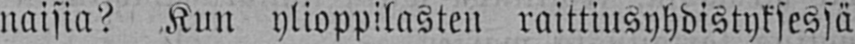naisia? Kun ylioppilasten raittiusyhdistyksessä
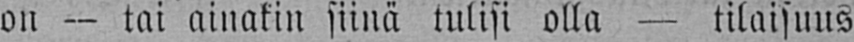on — tai ainakin siinä tulisi olla — tilaisuus
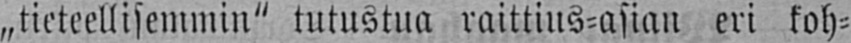„tieteellisemmin" tutustua raittius-asian eri koh-
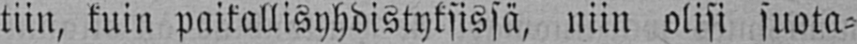tiin, kuin paikallisyhdistyksissä, niin olisi suota-
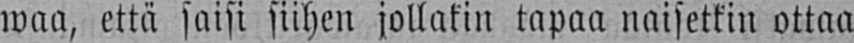waa, että saisi siihen jollakin tapaa naisetkin ottaa
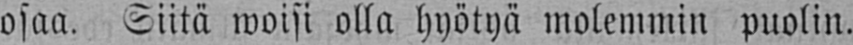osaa. Siitä woisi olla hyötyä molemmin puolin.
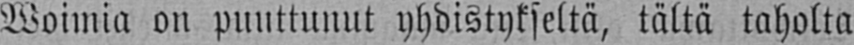Woimia on puuttunut yhdistykseltä, tältä taholta
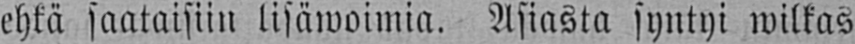ehkä saataisiin lisäwoimia. Asiasta syntyi wilkas
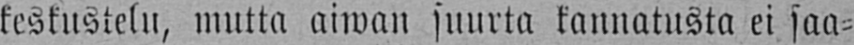keskustelu, mutta aiwan suurta kannatusta ei saa-
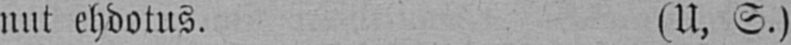nut ehdotus. (U, S.)
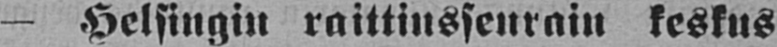— Helsingin raittiusseurain keskus-
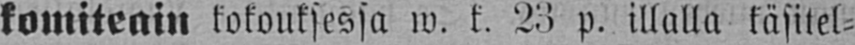komiteain kokouksessa w. k. 23 p. illalla käsitel-
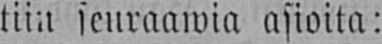tiin seuraawia asioita:
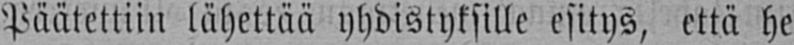Päätettiin lähettää yhdistyksille esitys, että he
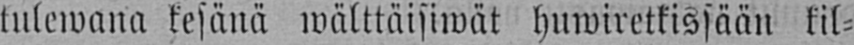tulewana kesänä wälttäisiwät huwiretkissään kil-
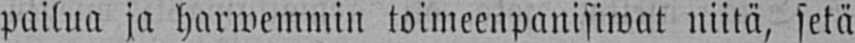pailua ja harwemmin toimeenpanisiwat niitä, setä
